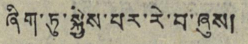ཞིག་ཏུ་སྐྱེས་པར་རེ་བ་ཞུས།
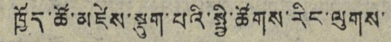ཁྱོད་ཚོ་མཛེས་སྡུག་པའི་སྤྱི་ཚོགས་རིང་ལུགས་
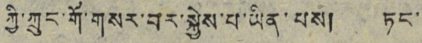ཀྱི་ཀྲུང་གོ་གསར་བར་སྐྱེས་པ་ཡིན་པས། ཏང་
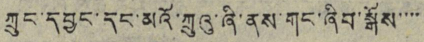ཀྲུང་དབྱང་དང་མའོ་ཀྲུའུ་ཞི་ནས་གང་ཞིབ་སྒོས་་་་
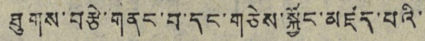ཐུགས་བརྩེ་གནང་བ་དང་གཅེས་སྐྱོང་མཛད་པའི་
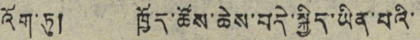འོག་ཏུ། ཁྱོད་ཚོས་ཆེས་བདེ་སྐྱིད་ཡིན་པའི་
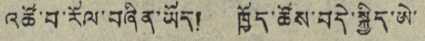འཚོ་བ་རོལ་བཞིན་ཡོད། ཁྱོད་ཚོས་བདེ་སྐྱིད་ཨེ་
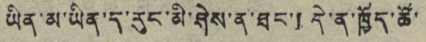ཡིན་མ་ཡིན་ད་རུང་མི་ཤེས་ན་ཐང་། དེ་ན་ཁྱོད་ཚོ་
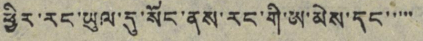ཕྱིར་རང་ཡུལ་དུ་སོང་ནས་རང་གི་ཨ་མེས་དང་་་་་
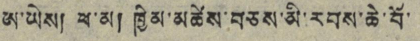ཨ་ཡེས། ཕ་མ། ཁྱིམ་མཚེས་བཅས་མི་རབས་ཆེ་བོ་
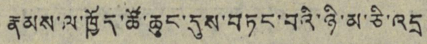རྣམས་ལ་ཁྱོད་ཚོ་ཆུང་དུས་བཏང་བའི་ཉི་མ་ཅི་འདྲ
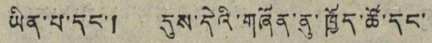ཡིན་པ་དང་། དུས་དེའི་གཞོན་ནུ་ཁྱོད་ཚོ་དང་
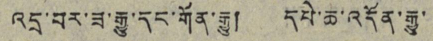འདྲ་བར་ཟ་རྒྱུ་དང་གོན་རྒྱུ། དཔེ་ཆ་འདོན་རྒྱུ་
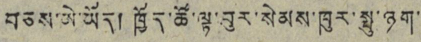བཅས་ཨེ་ཡོད། ཁྱོད་ཚོ་ལྟ་བུར་སེམས་ཁུར་སྤུ་ཉག་
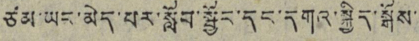ཙམ་ཡང་མེད་པར་སློབ་སྦྱོང་དང་དགའ་སྐྱིད་སྒོས་
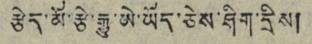རྩེད་མོ་རྩེ་རྒྱུ་ཨེ་ཡོད་ཅེས་ཤིག་དྲིས།
